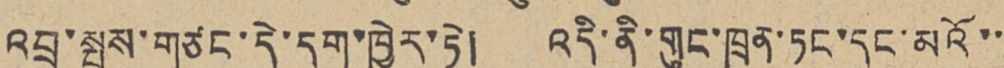འབྲུ་སྤུས་གཙང་དེ་དག་ཁྱེར་ཏེ། འདི་ནི་གུང་ཁྲན་ཏང་དང་མའོ་་
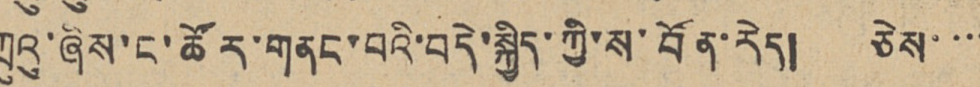ཀྲུའུ་ཞིས་ང་ཚོར་གནང་བའི་བདེ་སྐྱིད་ཀྱི་ས་བོན་རེད། ཅེས་་་་
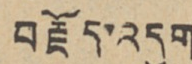བརྗོད་འདུག
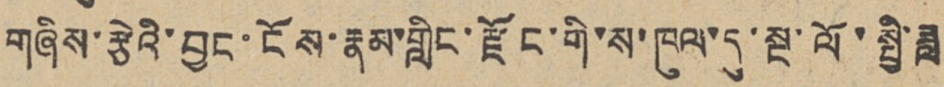གཞིས་རྩེའི་བྱང་ངོས་རྣམ་གླིང་རྫོང་གི་ས་ཁུལ་དུ་སྔ་ལོ་སྤྱི་ཟླ
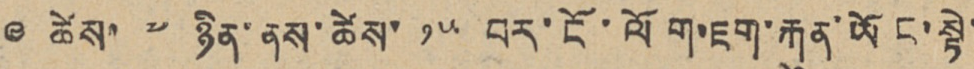༩ ཚེས་ ༧ ཉིན་ནས་ཚེས་ ༡༥ བར་ངོ་ལོག་ཇག་རྐུན་ཡོང་སྟེ་
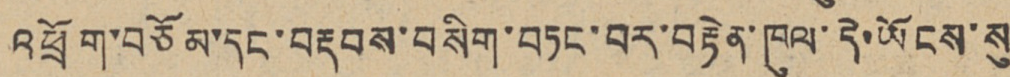འཕྲོག་བཅོམ་དང་བརྡབས་བསིག་བཏང་བར་བརྟེན་ཁུལ་དེ་ཡོངས་སུ
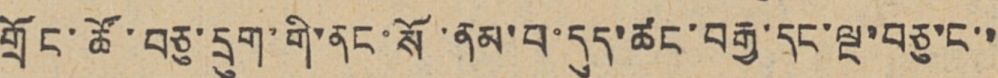གྲོང་ཚོ་བཅུ་དྲུག་གི་ནང་སོ་ནམ་པ་དུད་ཚང་བརྒྱ་དང་ལྔ་བཅུ་ང་་
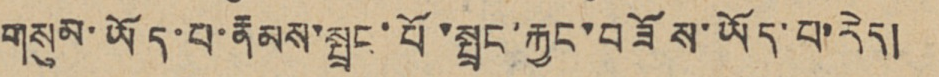གསུམ་ཡོད་པ་རྣམས་སྤྲང་པོ་སྤྲང་རྐྱང་བཟོས་ཡོད་པ་རེད།
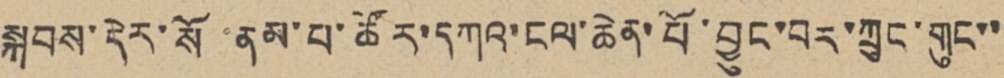སྐབས་དེར་སོ་ནམ་པ་ཚོར་དཀའ་ངལ་ཆེན་པོ་བྱུང་བར་ཀྲུང་གུང་་
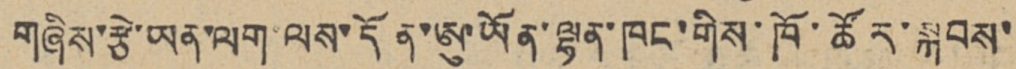གཞིས་རྩེ་ཡན་ལག་ལས་དོན་ཨུ་ཡོན་ལྷན་ཁང་གིས་ཁོ་ཚོར་སྐབས་
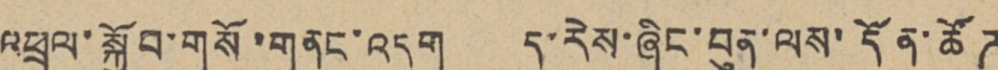འཕྲལ་སྐྱོབ་གསོ་གནང་འདུག ད་རེས་ཞིང་བུན་ལས་དོན་ཚོཊ
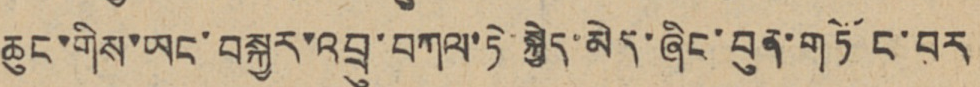ཆུང་གིས་ཡང་བསྐྱར་འབྲུ་བཀལ་ཏེ་སྐྱེད་མེད་ཞིང་བུན་གཏོང་བར
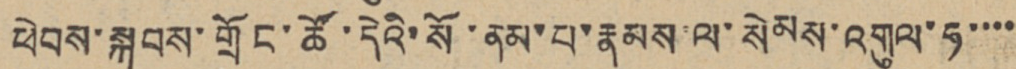ཕེབས་སྐབས་གྲོང་ཚོ་དེའི་སོ་ནམ་པ་རྣམས་ལ་སེམས་འགུལ་ཧ་་་་
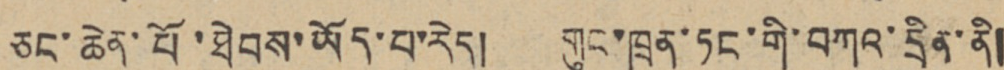ཅང་ཆེན་པོ་ཐེབས་ཡོད་པ་རེད། གུང་ཁྲན་ཏང་གི་བཀའ་དྲིན་ནི།
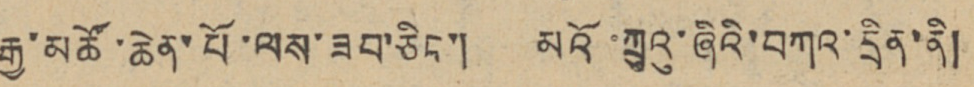རྒྱ་མཚོ་ཆེན་པོ་ལས་ཟབ་ཅིང་། མའོ་ཀྲུའུ་ཞིའི་བཀའ་དྲིན་ནི།
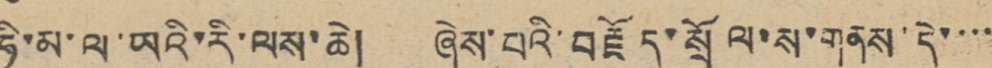ཧི་མ་ལ་ཡའི་རི་ལས་ཆེ། ཞེས་པའི་བརྗོད་སྲོལ་ས་གནས་དེ་་་་
